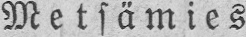Metsämies.
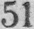51
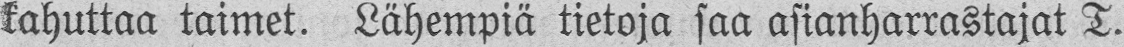kahuttaa taimet. Lähempiä tietoja saa asianharrastajat T.
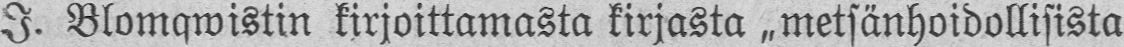J. Blomqwistin kirjoittamasta kirjasta „metsänhoidollisista
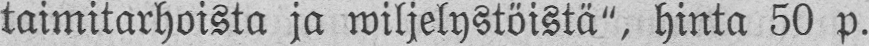taimitarhoista ja wiljelystöistä", hinta 50 p.
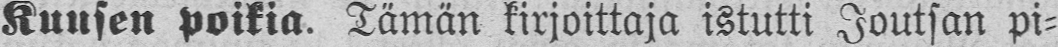Kuusen poikia. Tämän kirjoittaja istutti Joutsan pi-
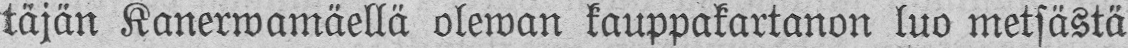täjän Kanerwamäellä olewan kauppakartanon luo metsästä
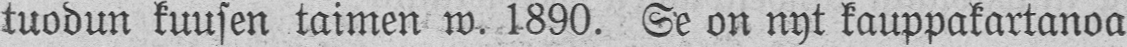tuodun kuusen taimen w. 1890. Se on nyt kauppakartanoa
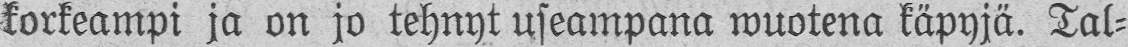korkeampi ja on jo tehnyt useampana wuotena käpyjä. Tal-
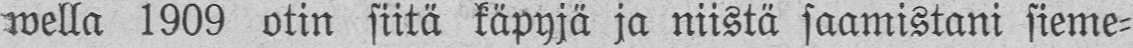wella 1909 otin siitä käpyjä ja niistä saamistani sieme-
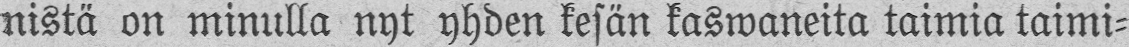nistä on minulla nyt yhden kesän kaswaneita taimia taimi-
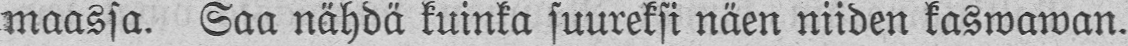maassa. Saa nähdä kuinka suureksi näen niiden kaswawan.
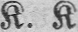K. K
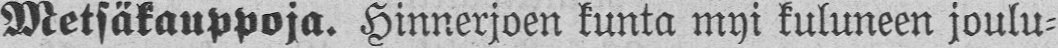Metsäkauppoja. Hinnerjoen kunta myi kuluneen joulu-
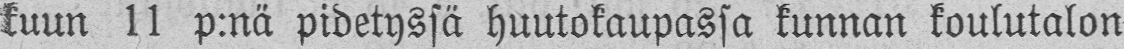kuun 11 p:nä pidetyssä huutokaupassa kunnan koulutalon
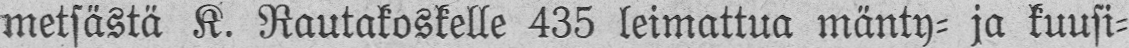metsästä K. Rautakoskelle 435 leimattua mänty- ja kuusi-
